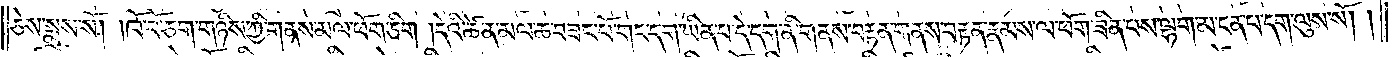ཅེས་སྨྲས་སོ། །ཁོ་བོ་ཅག་གཉིས་ཀྱི་གནས་མལ་ཕོག་ཅིག །དེའི་ཚེ་ན་མལ་ཆ་བཟང་པོ་གང་དག་ཡིན་པ་དེ་དག་ནི་གནས་བརྟན་གནས་བརྟན་རྣམས་ལ་ཕོག་ཟིན་པས་ལྷག་མ་ངན་པ་དག་ལུས་སོ། །
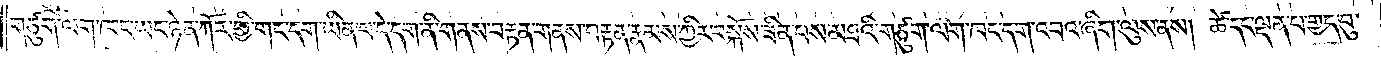གཙུག་ལག་ཁང་ཡང་ཉེན་ཀོར་གྱི་གང་དག་ཡིན་པ་དེ་དག་ནི་གནས་བརྟན་གནས་བརྟན་རྣམས་ཀྱིས་བསྐོས་ཟིན་པས་མཐའི་གཙུག་ལག་ཁང་དག་འབའ་ཞིག་ལུས་ནས། ཚེ་དང་ལྡན་པ་གྱད་བུ་
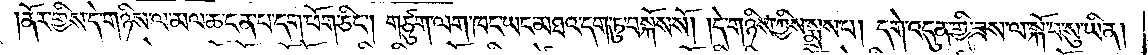ནོར་གྱིས་དེ་གཉིས་ལ་མལ་ཆ་ངན་པ་དག་ཕོག་ཅིང༌། གཙུག་ལག་ཁང་ཡང་མཐའ་དག་ཏུ་བསྐོས་སོ། །དེ་གཉིས་ཀྱིས་སྨྲས་པ། དགེ་འདུན་གྱི་ཟས་ལ་སྐོ་བ་སུ་ཡིན།
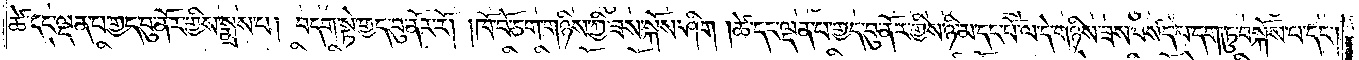ཚེ་དང་ལྡན་པ་གྱད་བུ་ནོར་གྱིས་སྨྲས་པ། བདག་སྟེ་གྱད་བུ་ནོར་རོ། །ཁོ་བོ་ཅག་གཉིས་ཀྱི་ཟས་སྐོས་ཤིག །ཚེ་དང་ལྡན་པ་གྱད་བུ་ནོར་གྱིས་ཉི་མ་དང་པོ་ལ་དེ་གཉིས་ཟས་བསོད་པ་དག་ཏུ་བསྐོས་པ་དང༌།
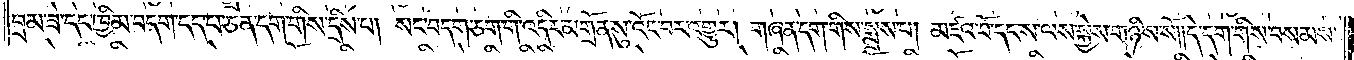བྲམ་ཟེ་དང་ཁྱིམ་བདག་དད་པ་ཅན་དག་གིས་དྲིས་པ། སང་བདག་ཅག་གི་འདིར་མགྲོན་སུ་འོང་བར་འགྱུར། གཞན་དག་གིས་སྨྲས་པ། མཛའ་བོ་དང་ས་ལས་སྐྱེས་གཉིས་སོ། །དེ་དག་གིས་བསམས་
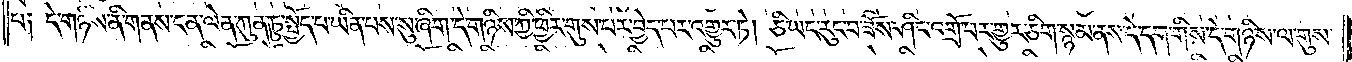པ༑ དེ་གཉིས་ནི་གནས་ངན་ལེན་ཀུན་ཏུ་སྤྱོད་པ་ཡིན་པས་སུ་ཞིག་དེ་གཉིས་ཀྱི་ཕྱིར་གུས་པར་བྱེད་པར་འགྱུར་ཏེ། ཅི་ཡང་རུང་བ་ཟོས་ཤིང་འགྲོ་བར་གྱུར་ཅིག་སྙམ་ནས་དེ་དག་གིས་དེ་གཉིས་ལ་གུས་
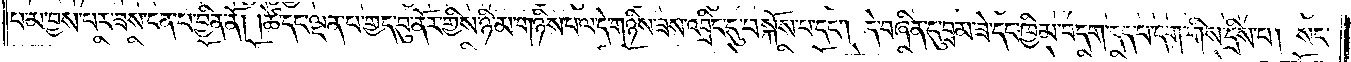པ་མ་བྱས་པར་ཟས་ངན་པ་བྱིན་ནོ། །ཚེ་དང་ལྡན་པ་གྱད་བུ་ནོར་གྱིས་ཉི་མ་གཉིས་པ་ལ་དེ་གཉིས་ཟས་འབྲིང་དུ་བསྐོས་པ་དང༌། དེ་བཞིན་དུ་བྲམ་ཟེ་དང་ཁྱིམ་བདག་དད་པ་དག་གིས་དྲིས་པ། སང་
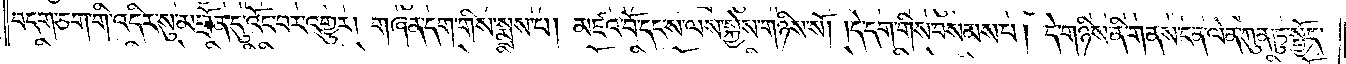བདག་ཅག་གི་འདིར་སུ་མགྲོན་དུ་འོང་བར་འགྱུར། གཞན་དག་གིས་སྨྲས་པ། མཛའ་བོ་དང་ས་ལས་སྐྱེས་གཉིས་སོ། །དེ་དག་གིས་བསམས་པ། དེ་གཉིས་ནི་གནས་ངན་ལེན་ཀུན་ཏུ་སྤྱོད་
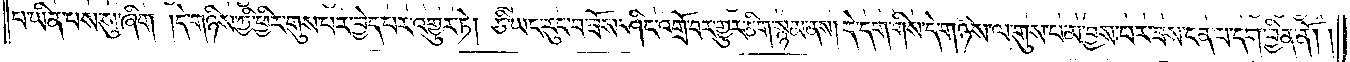པ་ཡིན་པས་སུ་ཞིག །དེ་གཉིས་ཀྱི་ཕྱིར་གུས་པར་བྱེད་པར་འགྱུར་ཏེ། ཅི་ཡང་རུང་བ་ཟོས་ཤིང་འགྲོ་བར་གྱུར་ཅིག་སྙམ་ནས། དེ་དག་གིས་དེ་གཉིས་ལ་གུས་པ་མ་བྱས་པར་ཟས་ངན་པ་དག་བྱིན་ནོ། །
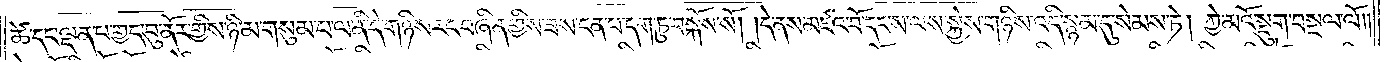ཚེ་དང་ལྡན་པ་གྱད་བུ་ནོར་གྱིས་ཉི་མ་གསུམ་པ་ལ་ནི་དེ་གཉིས་རང་བཞིན་གྱིས་ཟས་ངན་པ་དག་ཏུ་བསྐོས་སོ། །དེ་ནས་མཛའ་བོ་དང་ས་ལས་སྐྱེས་གཉིས་འདི་སྙམ་དུ་སེམས་ཏེ། ཀྱེ་མའོ་སྡུག་བསྔལ་ལོ༎
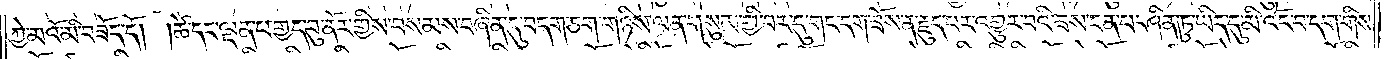ཀྱེ་མའོ་མི་བཟོད་དོ། །ཚེ་དང་ལྡན་པ་གྱད་བུ་ནོར་གྱིས་བསམས་བཞིན་དུ་བདག་ཅག་གཉིས་ལན་གསུམ་གྱི་བར་དུ་གང་དག་ཟོས་ན་རྗུད་པར་འགྱུར་བའི་ཟས་ངན་པ་ཤིན་ཏུ་ཡིད་དུ་མི་འོང་བ་དག་གིས་
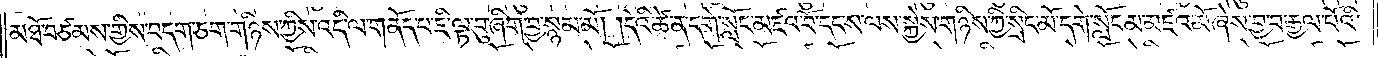མཐོ་བཙམས་གྱིས་བདག་ཅག་གཉིས་ཀྱིས་འདི་ལ་གནོད་པ་ཇི་ལྟ་བུ་ཞིག་བྱ་སྙམ་མོ། །དེའི་ཚེ་ན་དགེ་སློང་མཛའ་བོ་དང་ས་ལས་སྐྱེས་གཉིས་ཀྱི་སྲིང་མོ་དགེ་སློང་མ་མཛའ་མོ་ཞེས་བྱ་བ་རྒྱལ་པོའི་
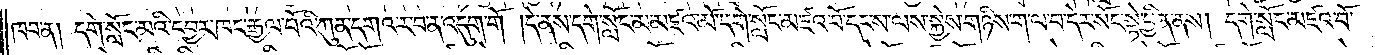ཁབ་ན། དགེ་སློང་མའི་དབྱར་ཁང་རྒྱལ་པོའི་ཀུན་དགའ་ར་བ་ན་འདུག་གོ །དེ་ནས་དགེ་སློང་མ་མཛའ་མོ་དགེ་སློང་མཛའ་བོ་དང་ས་ལས་སྐྱེས་གཉིས་ག་ལ་བ་དེར་སོང་སྟེ་ཕྱིན་ནས། དགེ་སློང་མཛའ་བོ་
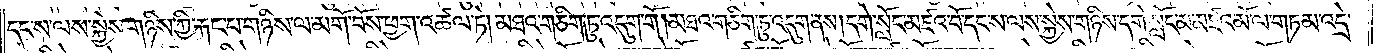དང་ས་ལས་སྐྱེས་གཉིས་ཀྱི་རྐང་པ་གཉིས་ལ་མགོ་བོས་ཕྱག་འཚལ་ཏེ། མཐའ་གཅིག་ཏུ་འདུག་གོ །མཐའ་གཅིག་ཏུ་འདུག་ནས། དགེ་སློང་མཛའ་བོ་དང་ས་ལས་སྐྱེས་གཉིས་དགེ་སློང་མ་མཛའ་མོ་ལ་གཏམ་འདྲེ་
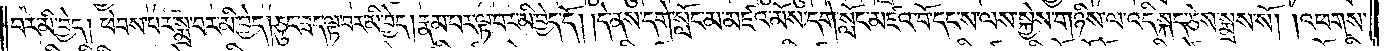བར་མི་བྱེད། ཕེབས་པར་སྨྲ་བར་མི་བྱེད། ཅུང་ཟད་ལྟ་བར་མི་བྱེད། རྣམ་པར་ལྟ་བར་མི་བྱེད་དོ། །དེ་ནས་དགེ་སློང་མ་མཛའ་མོས་དགེ་སློང་མཛའ་བོ་དང་ས་ལས་སྐྱེས་གཉིས་ལ་འདི་སྐད་ཅེས་སྨྲས་སོ། །འཕགས་
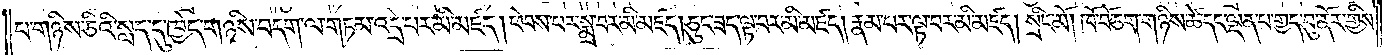པ་གཉིས་ཅིའི་སླད་དུ་ཁྱེད་གཉིས་བདག་ལ་གཏམ་འདྲེ་པར་མི་མཛད། ཕེབས་པར་སྨྲ་བར་མི་མཛད། ཅུང་ཟད་ལྟ་བར་མི་མཛད། རྣམ་པར་ལྟ་བར་མི་མཛད། སྲིང་མོ། ཁོ་བོ་ཅག་གཉིས་ཚེ་དང་ལྡན་པ་གྱད་བུ་ནོར་གྱིས་
